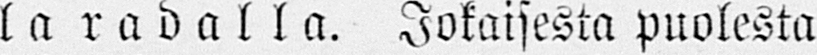laradalla. Jokaisesta puolesta
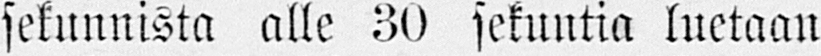sekunnista alle 30 sekuntia luetaan
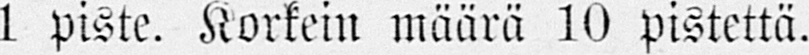1 piste. Korkein määrä 10 pistettä.
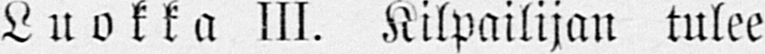Luokka III. Kilpailijan tulee
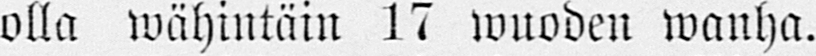olla wähintäin 17 wuoden wanha.
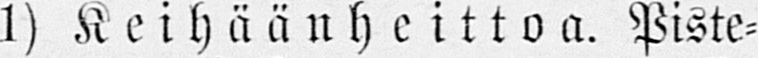1) Keihäänheittoa. Piste-
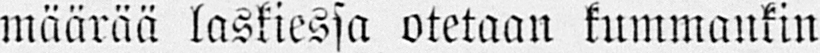määrää laskiessa otetaan kummankin
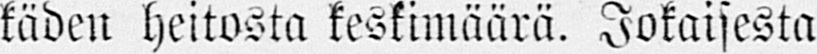käden heitosta keskimäärä. Jokaisesta
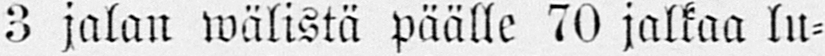3 jalan wälistä päälle 70 jalkaa lu-
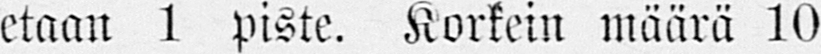etaan 1 piste. Korkein määrä 10
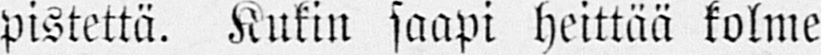pistettä. Kukin saapi heittää kolme
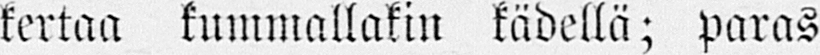kertaa tummallakin kädellä; paras
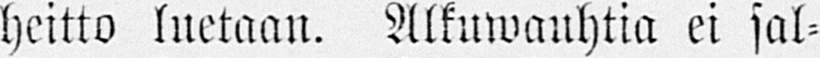heitto luetaan. Alkuwauhtia ei sal-
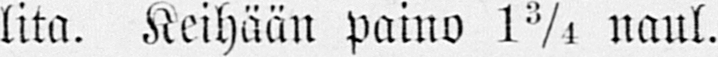lita. Keihään paino 1 3/4 naul.
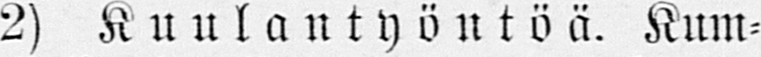2) Kuulantyöntöä. Kum-
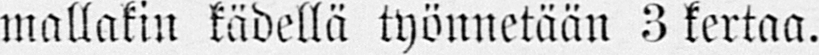mallakin kädellä työnnetään 3 kertaa.
